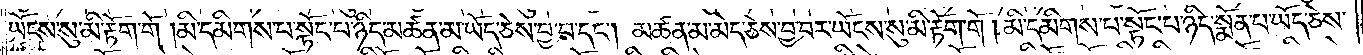ཡོངས་སུ་མི་རྟོག་གོ །མི་དམིགས་པ་སྟོང་པ་ཉིད་མཚན་མ་ཡོད་ཅེས་བྱ་བ་དང༌། མཚན་མ་མེད་ཅེས་བྱ་བར་ཡོངས་སུ་མི་རྟོག་གོ །མི་དམིགས་པ་སྟོང་པ་ཉིད་སྨོན་པ་ཡོད་ཅེས་
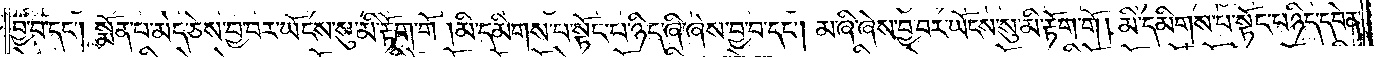བྱ་བ་དང༌། སྨོན་པ་མེད་ཅེས་བྱ་བར་ཡོངས་སུ་མི་རྟོག་གོ །མི་དམིགས་པ་སྟོང་པ་ཉིད་ཞི་ཞེས་བྱ་བ་དང༌། མ་ཞི་ཞེས་བྱ་བར་ཡོངས་སུ་མི་རྟོག་གོ །མི་དམིགས་པ་སྟོང་པ་ཉིད་དབེན་
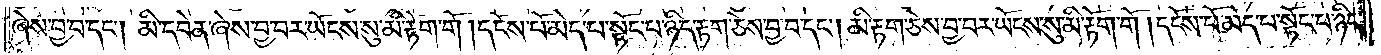ཞེས་བྱ་བ་དང༌། མི་དབེན་ཞེས་བྱ་བར་ཡོངས་སུ་མི་རྟོག་གོ །དངོས་པོ་མེད་པ་སྟོང་པ་ཉིད་རྟག་ཅེས་བྱ་བ་དང༌། མི་རྟག་ཅེས་བྱ་བར་ཡོངས་སུ་མི་རྟོག་གོ །དངོས་པོ་མེད་པ་སྟོང་པ་ཉིད་
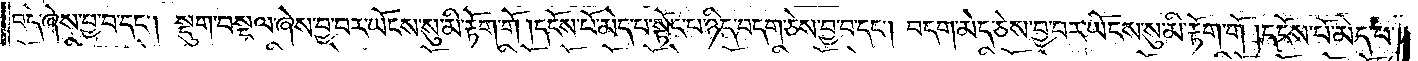བདེ་ཞེས་བྱ་བ་དང༌། སྡུག་བསྔལ་ཞེས་བྱ་བར་ཡོངས་སུ་མི་རྟོག་གོ །དངོས་པོ་མེད་པ་སྟོང་པ་ཉིད་བདག་ཅེས་བྱ་བ་དང༌། བདག་མེད་ཅེས་བྱ་བར་ཡོངས་སུ་མི་རྟོག་གོ །དངོས་པོ་མེད་པ་
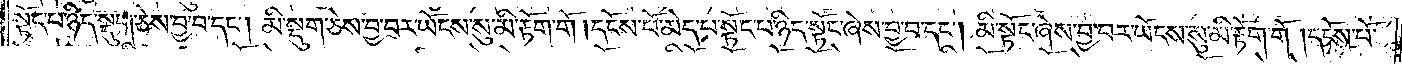སྟོང་པ་ཉིད་སྡུག་བསྔལ་ཅེས་བྱ་བ་དང༌། མི་སྡུག་ཅེས་བྱ་བར་ཡོངས་སུ་མི་རྟོག་གོ །དངོས་པོ་མེད་པ་སྟོང་པ་ཉིད་སྟོང་ཞེས་བྱ་བ་དང༌། མི་སྟོང་ཞེས་བྱ་བར་ཡོངས་སུ་མི་རྟོག་གོ །དངོས་པོ་
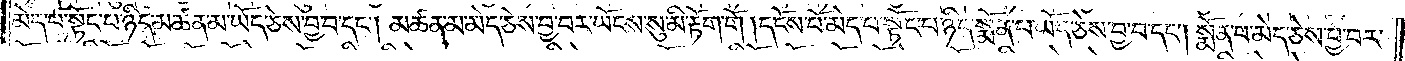མེད་པ་སྟོང་པ་ཉིད་མཚན་མ་ཡོད་ཅེས་བྱ་བ་དང༌། མཚན་མ་མེད་ཅེས་བྱ་བར་ཡོངས་སུ་མི་རྟོག་གོ །དངོས་པོ་མེད་པ་སྟོང་པ་ཉིད་སྨོན་པ་ཡོད་ཅེས་བྱ་བ་དང༌། སྨོན་པ་མེད་ཅེས་བྱ་བར་
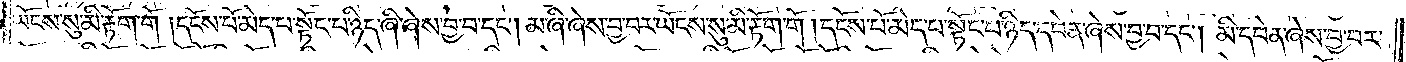ཡོངས་སུ་མི་རྟོག་གོ །དངོས་པོ་མེད་པ་སྟོང་པ་ཉིད་ཞི་ཞེས་བྱ་བ་དང༌། མ་ཞི་ཞེས་བྱ་བར་ཡོངས་སུ་མི་རྟོག་གོ །དངོས་པོ་མེད་པ་སྟོང་པ་ཉིད་དབེན་ཞེས་བྱ་བ་དང༌། མི་དབེན་ཞེས་བྱ་བར་
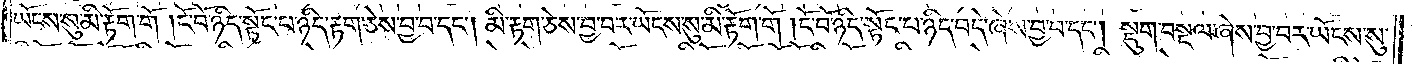ཡོངས་སུ་མི་རྟོག་གོ །ངོ་བོ་ཉིད་སྟོང་པ་ཉིད་རྟག་ཅེས་བྱ་བ་དང༌། མི་རྟག་ཅེས་བྱ་བར་ཡོངས་སུ་མི་རྟོག་གོ །ངོ་བོ་ཉིད་སྟོང་པ་ཉིད་བདེ་ཞེས་བྱ་བ་དང༌། སྡུག་བསྔལ་ཞེས་བྱ་བར་ཡོངས་སུ་
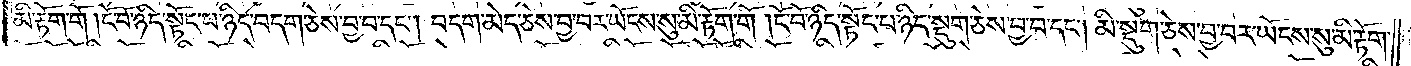མི་རྟོག་གོ །ངོ་བོ་ཉིད་སྟོང་པ་ཉིད་བདག་ཅེས་བྱ་བ་དང༌། བདག་མེད་ཅེས་བྱ་བར་ཡོངས་སུ་མི་རྟོག་གོ །ངོ་བོ་ཉིད་སྟོང་པ་ཉིད་སྡུག་ཅེས་བྱ་བ་དང༌། མི་སྡུག་ཅེས་བྱ་བར་ཡོངས་སུ་མི་རྟོག་
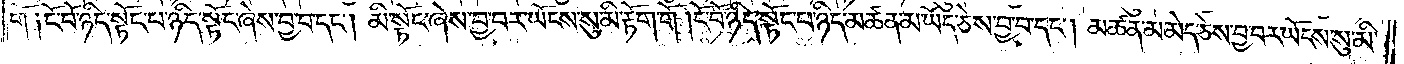གོ །ངོ་བོ་ཉིད་སྟོང་པ་ཉིད་སྟོང་ཞེས་བྱ་བ་དང༌། མི་སྟོང་པ་ཞེས་བྱ་བར་ཡོངས་སུ་མི་རྟོག་གོ །ངོ་བོ་ཉིད་སྟོང་པ་ཉིད་མཚན་མ་ཡོད་ཅེས་བྱ་བ་དང༌། མཚན་མ་མེད་ཅེས་བྱ་བར་ཡོངས་སུ་མི་
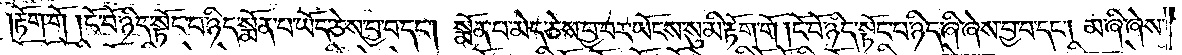རྟོག་གོ །ངོ་བོ་ཉིད་སྟོང་པ་ཉིད་སྨོན་པ་ཡོད་ཅེས་བྱ་བ་དང༌། སྨོན་པ་མེད་ཅེས་བྱ་བར་ཡོངས་སུ་མི་རྟོག་གོ །ངོ་བོ་ཉིད་སྟོང་པ་ཉིད་ཞི་ཞེས་བྱ་བ་དང༌། མ་ཞི་ཞེས་
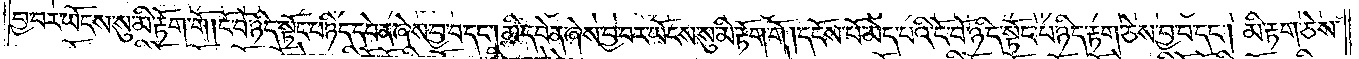བྱ་བར་ཡོངས་སུ་མི་རྟོག་གོ །ངོ་བོ་ཉིད་སྟོང་པ་ཉིད་དབེན་ཞེས་བྱ་བ་དང༌། མི་དབེན་ཞེས་བྱ་བར་ཡོངས་སུ་མི་རྟོག་གོ །དངོས་པོ་མེད་བའི་ངོ་བོ་ཉིད་སྟོང་པ་ཉིད་རྟག་ཅེས་བྱ་བ་དང༌། མེ་རྟག་ཅེས་
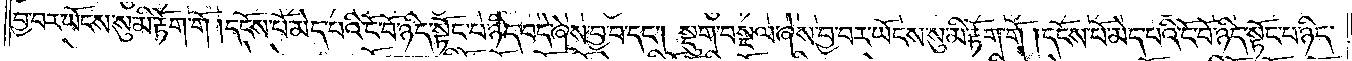བྱ་བར་ཡོངས་སུ་མི་རྟོག་གོ །དངོས་པོ་མེད་པའི་ངོ་བོ་ཉིད་སྟོང་པ་ཉིད་བདེ་ཞེས་བྱ་བ་དང༌། སྡུག་བསྔལ་ཞེས་བྱ་བར་ཡོངས་སུ་མི་རྟོག་གོ །དངོས་པོ་མེད་པའི་ངོ་བོ་ཉིད་སྟོང་པ་ཉིད་
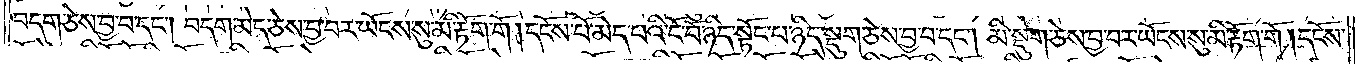བདག་ཅེས་བྱ་བ་དང༌། བདག་མེད་ཅེས་བྱ་བར་ཡོངས་སུ་མི་རྟོག་གོ །དངོས་པོ་མེད་པའི་ངོ་བོ་ཉིད་སྟོང་པ་ཉིད་སྡུག་ཅེས་བྱ་བ་དང༌། མི་སྡུག་ཅེས་བྱ་བར་ཡོངས་སུ་མི་རྟོག་གོ །དངོས་
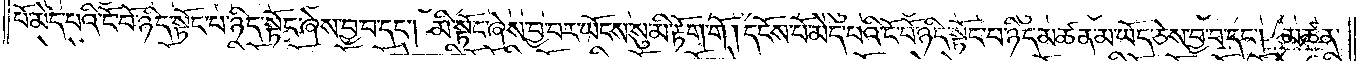པོ་མེད་པའི་ངོ་བོ་ཉིད་སྟོང་པ་ཉིད་སྟོང་ཞེས་བྱ་བ་དང༌། མི་སྟོང་ཞེས་བྱ་བར་ཡོངས་སུ་མི་རྟོག་གོ །དངོས་པོ་མེད་པའི་ངོ་བོ་ཉིད་སྟོང་པ་ཉིད་མཚན་མ་ཡོད་ཅེས་བྱ་བ་དང༌། མཚན་
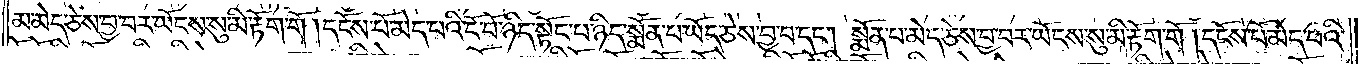མ་མེད་ཅེས་བྱ་བར་ཡོངས་སུ་མི་རྟོག་གོ ། དངོས་པོ་མེད་པའི་ངོ་བོ་ཉིད་སྟོང་པ་ཉིད་སྨོན་པ་ཡོད་ཅེས་བྱ་བ་དང༌། སྨོན་པ་མེད་ཅེས་བྱ་བར་ཡོངས་སུ་མི་རྟོག་གོ ། དངོས་པོ་མེད་པའི་
